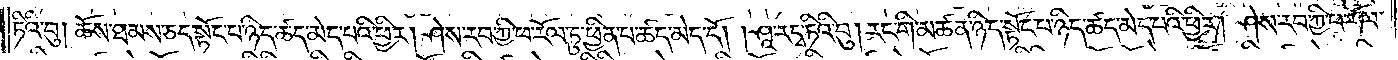ཏིའི་བུ། ཆོས་ཐམས་ཅད་སྟོང་པ་ཉིད་ཚད་མེད་པའི་ཕྱིར། ཤེས་རབ་ཀྱི་ཕ་རོལ་ཏུ་ཕྱིན་པ་ཚད་མེད་དོ། །ཤཱ་རདྭ་ཏིའི་བུ། རང་གི་མཚན་ཉིད་སྟོང་པ་ཉིད་ཚད་མེད་པའི་ཕྱིར། ཤེས་རབ་ཀྱི་ཕ་རོལ་
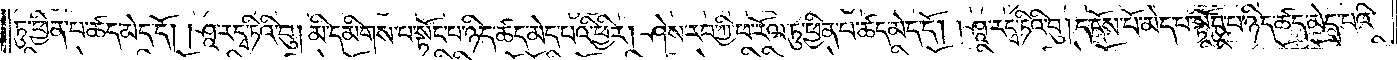ཏུ་ཕྱིན་པ་ཚད་མེད་དོ། །ཤཱ་རདྭ་ཏིའི་བུ། མི་དམིགས་པ་སྟོང་པ་ཉིད་ཚད་མེད་པའི་ཕྱིར། ཤེས་རབ་ཀྱི་ཕ་རོལ་ཏུ་ཕྱིན་པ་ཚད་མེད་དོ། །ཤཱ་རདྭ་ཏིའི་བུ། དངོས་པོ་མེད་པ་སྟོང་པ་ཉིད་ཚད་མེད་པའི་
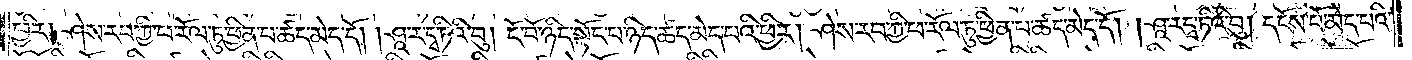ཕྱིར༑ ཤེས་རབ་ཀྱི་ཕ་རོལ་ཏུ་ཕྱིན་པ་ཚད་མེད་དོ། །ཤཱ་རདྭ་ཏིའི་བུ། ངོ་བོ་ཉིད་སྟོང་པ་ཉིད་ཚད་མེད་པའི་ཕྱིར། ཤེས་རབ་ཀྱི་ཕ་རོལ་ཏུ་ཕྱིན་པ་ཚད་མེད་དོ། །ཤཱ་རདྭ་ཏིའི་བུ། དངོས་པོ་མེད་པའི་
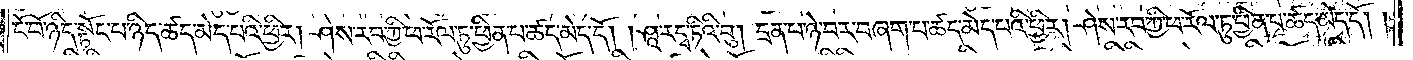ངོ་བོ་ཉིད་སྟོང་པ་ཉིད་ཚད་མེད་པའི་ཕྱིར། ཤེས་རབ་ཀྱི་ཕ་རོལ་ཏུ་ཕྱིན་པ་ཚད་མེད་དོ། །ཤཱ་རདྭ་ཏིའི་བུ། དྲན་པ་ཉེ་བར་བཞག་པ་ཚད་མེད་པའི་ཕྱིར། ཤེས་རབ་ཀྱི་ཕ་རོལ་ཏུ་ཕྱིན་པ་ཚད་མེད་དོ། །
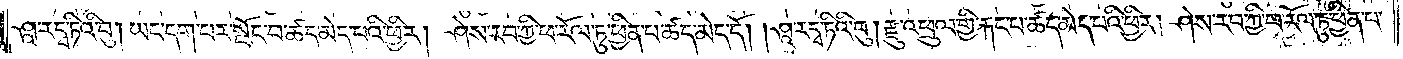ཤཱ་རདྭ་ཏིའི་བུ། ཡང་དག་པར་སྤོང་བ་ཚད་མེད་པའི་ཕྱིར། ཤེས་རབ་ཀྱི་ཕ་རོལ་ཏུ་ཕྱིན་པ་ཚད་མེད་དོ། །ཤཱ་རདྭ་ཏིའི་བུ། རྫུ་འཕྲུལ་གྱི་རྐང་པ་ཚད་མེད་པའི་ཕྱིར། ཤེས་རབ་ཀྱི་ཕ་རོལ་ཏུ་ཕྱིན་པ་
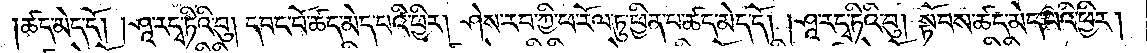ཚད་མེད་དོ། །ཤཱ་རདྭ་ཏིའི་བུ། དབང་པོ་ཚད་མེད་པའི་ཕྱིར། ཤེས་རབ་ཀྱི་ཕ་རོལ་ཏུ་ཕྱིན་པ་ཚད་མེད་དོ། །ཤཱ་རདྭ་ཏིའི་བུ། སྟོབས་ཚད་མེད་པའི་ཕྱིར།
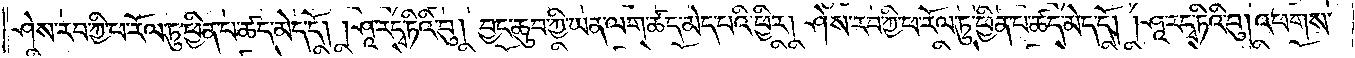ཤེས་རབ་ཀྱི་ཕ་རོལ་ཏུ་ཕྱིན་པ་ཚད་མེད་དོ། །ཤཱ་རདྭ་ཏིའི་བུ། བྱང་ཆུབ་ཀྱི་ཡན་ལག་ཚད་མེད་པའི་ཕྱིར། ཤེས་རབ་ཀྱི་ཕ་རོལ་ཏུ་ཕྱིན་པ་ཚད་མེད་དོ། །ཤཱ་རདྭ་ཏིའི་བུ། འཕགས་
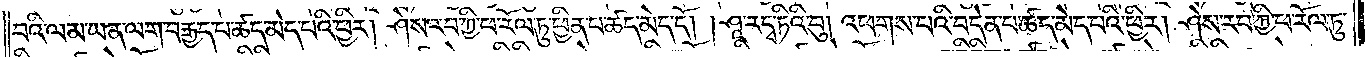པའི་ལམ་ཡན་ལག་བརྒྱད་པ་ཚད་མེད་པའི་ཕྱིར། ཤེས་རབ་ཀྱི་ཕ་རོལ་ཏུ་ཕྱིན་པ་ཚད་མེད་དོ། །ཤཱ་རདྭ་ཏིའི་བུ། འཕགས་པའི་བདེན་པ་ཚད་མེད་པའི་ཕྱིར། ཤེས་རབ་ཀྱི་ཕ་རོལ་ཏུ་
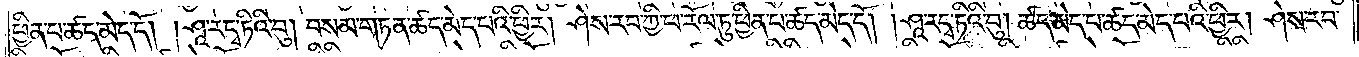ཕྱིན་པ་ཚད་མེད་དོ། །ཤཱ་རདྭ་ཏིའི་བུ། བསམ་གཏན་ཚད་མེད་པའི་ཕྱིར། ཤེས་རབ་ཀྱི་ཕ་རོལ་ཏུ་ཕྱིན་པ་ཚད་མེད་དོ། །ཤཱ་རདྭ་ཏིའི་བུ། ཚད་མེད་པ་ཚད་མེད་པའི་ཕྱིར། ཤེས་རབ་
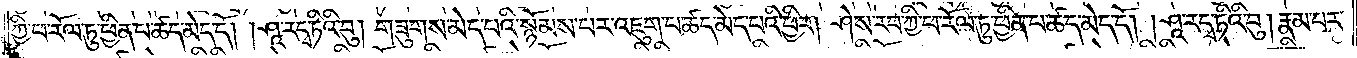ཀྱི་ཕ་རོལ་ཏུ་ཕྱིན་པ་ཚད་མེད་དོ། །ཤཱ་རདྭ་ཏིའི་བུ། གཟུགས་མེད་པའི་སྙོམས་པར་འཇུག་པ་ཚད་མེད་པའི་ཕྱིར། ཤེས་རབ་ཀྱི་ཕ་རོལ་ཏུ་ཕྱིན་པ་ཚད་མེད་དོ། །ཤཱ་རདྭ་ཏིའི་བུ། རྣམ་པར་
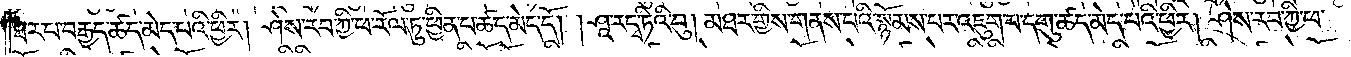ཐར་པ་བརྒྱད་ཚད་མེད་པའི་ཕྱིར། ཤེས་རབ་ཀྱི་ཕ་རོལ་ཏུ་ཕྱིན་པ་ཚད་མེད་དོ། །ཤཱ་རདྭ་ཏིའི་བུ། མཐར་གྱིས་གནས་པའི་སྙོམས་པར་འཇུག་པ་དགུ་ཚད་མེད་པའི་ཕྱིར། ཤེས་རབ་ཀྱི་ཕ་
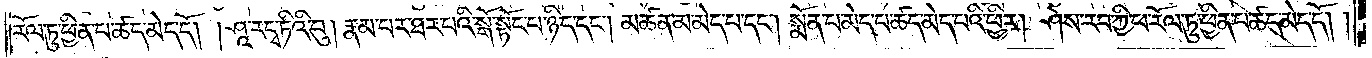རོལ་ཏུ་ཕྱིན་པ་ཚད་མེད་དོ། །ཤཱ་རདྭ་ཏིའི་བུ། རྣམ་པར་ཐར་པའི་སྒོ་སྟོང་པ་ཉིད་དང༌། མཚན་མ་མེད་པ་དང༌། སྨོན་པ་མེད་པ་ཚད་མེད་པའི་ཕྱིར། ཤེས་རབ་ཀྱི་ཕ་རོལ་ཏུ་ཕྱིན་པ་ཚད་མེད་དོ། །
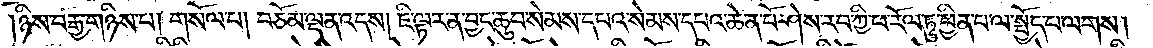ཉིས་བརྒྱ་གཉིས་པ། གསོལ་པ། བཅོམ་ལྡན་འདས། ཇི་ལྟར་ན་བྱང་ཆུབ་སེམས་དཔའ་སེམས་དཔའ་ཆེན་པོ་ཤེས་རབ་ཀྱི་ཕ་རོལ་ཏུ་ཕྱིན་པ་ལ་སྤྱོད་པ་ལགས།
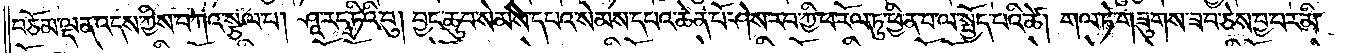བཅོམ་ལྡན་འདས་ཀྱིས་བཀའ་སྩལ་པ། ཤཱ་རདྭ་ཏིའི་བུ། བྱང་ཆུབ་སེམས་དཔའ་སེམས་དཔའ་ཆེན་པོ་ཤེས་རབ་ཀྱི་ཕ་རོལ་ཏུ་ཕྱིན་པ་ལ་སྤྱོད་པའི་ཚེ། གལ་ཏེ་གཟུགས་ཟབ་ཅེས་བྱ་བར་མི་
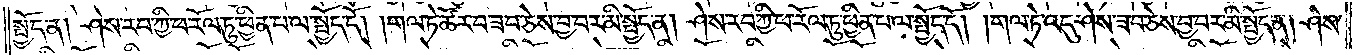སྤྱོད་ན། ཤེས་རབ་ཀྱི་ཕ་རོལ་ཏུ་ཕྱིན་པ་ལ་སྤྱོད་དོ། །གལ་ཏེ་ཚོར་བ་ཟབ་ཅེས་བྱ་བར་མི་སྤྱོད་ན། ཤེས་རབ་ཀྱི་ཕ་རོལ་ཏུ་ཕྱིན་པ་ལ་སྤྱོད་དོ། །གལ་ཏེ་འདུ་ཤེས་ཟབ་ཅེས་བྱ་བར་མི་སྤྱོད་ན། ཤེས་
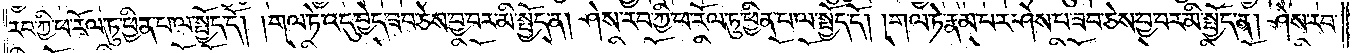རབ་ཀྱི་ཕ་རོལ་ཏུ་ཕྱིན་པ་ལ་སྤྱོད་དོ། །གལ་ཏེ་འདུ་བྱེད་ཟབ་ཅེས་བྱ་བར་མི་སྤྱོད་ན། ཤེས་རབ་ཀྱི་ཕ་རོལ་ཏུ་ཕྱིན་པ་ལ་སྤྱོད་དོ། །གལ་ཏེ་རྣམ་པར་ཤེས་པ་ཟབ་ཅེས་བྱ་བར་མི་སྤྱོད་ན། ཤེས་རབ་
